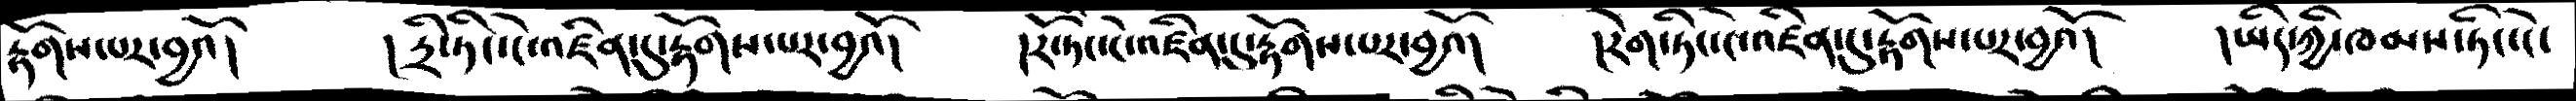རྟོགས་པར་བྱའོ།  །དྲི་ཏིང་ངེ་འཛིན་དུ་རྟོགས་པར་བྱའོ།  །རོ་ཏིང་ངེ་འཛིན་དུ་རྟོགས་པར་བྱའོ།  །རེག་ཏིང་ངེ་འཛིན་དུ་རྟོགས་པར་བྱའོ།  །ཡིད་ཀྱི་ཁམས་ཏིང་ངེ་
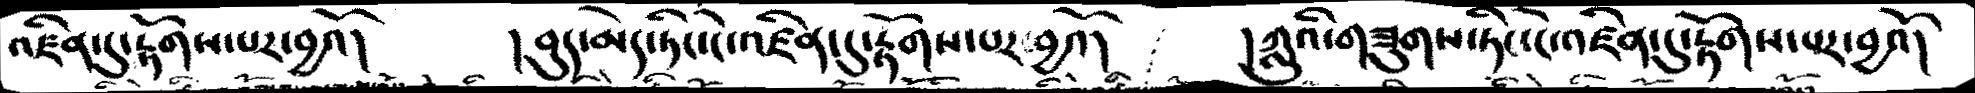འཛིན་དུ་རྟོགས་པར་བྱའོ།  །བུད་མེད་ཏིང་ངེ་འཛིན་དུ་རྟོགས་པར་བྱའོ།  །ཀླུའི་གཟུགས་ཏིང་ངེ་འཛིན་དུ་རྟོགས་པར་བྱའོ།
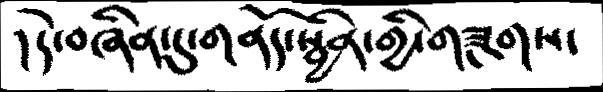།དེ་བཞིན་དུ་གནོད་སྦྱིན་གྱི་གཟུགས་
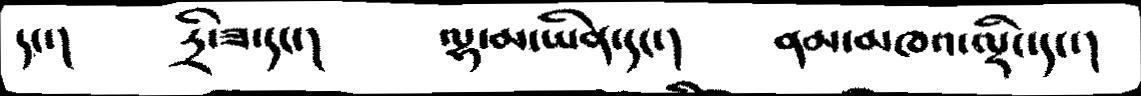དང་།    དྲི་ཟ་དང་།   ལྷ་མ་ཡིན་དང་།   ནམ་མཁའ་ལྡིང་དང་།
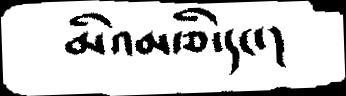མིའམ་ཅི་དང་།
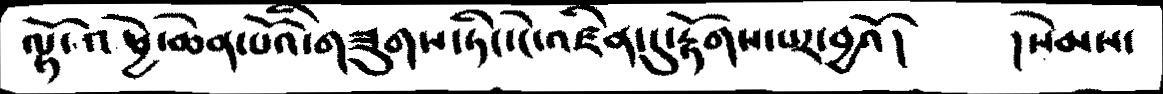ལྟོ་འ ཕྱེ་ཆེན་པོའི་གཟུགས་ཏིང་ངེ་འཛིན་དུ་རྟོགས་པར་བྱའོ།  །སེམས་
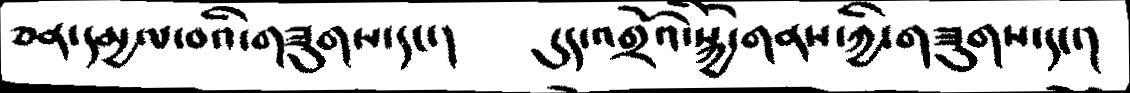ཅན་དམྱལ་བའི་གཟུགས་དང་།  དུད་འགྲོའི་སྐྱེ་གནས་ཀྱི་གཟུགས་དང་།
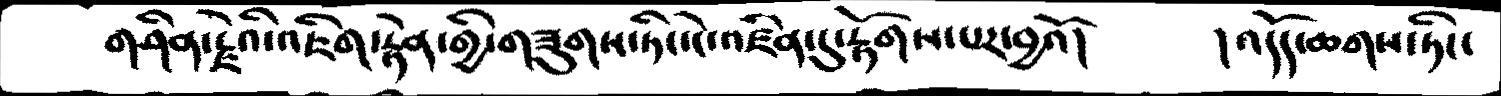གཤིན་རྗེའི་འཇིག་རྟེན་གྱི་གཟུགས་ཏིང་ངེ་འཛིན་དུ་རྟོགས་པར་བྱའོ།   །འདོད་ཆགས་ཏིང་
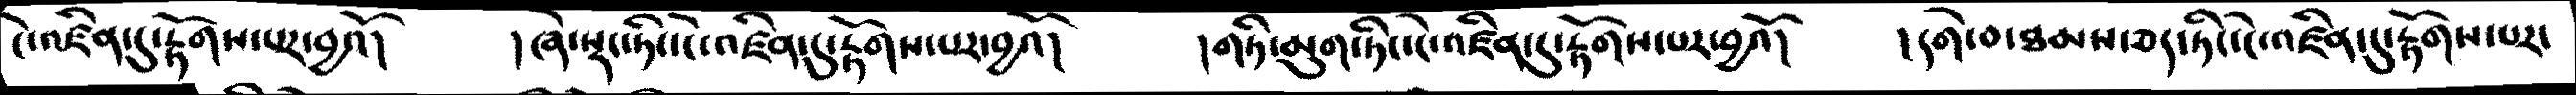ངེ་འཛིན་དུ་རྟོགས་པར་བྱའོ།   །ཞེ་སྡང་ཏིང་ངེ་འཛིན་དུ་རྟོགས་པར་བྱའོ།  །གཏི་མུག་ཏིང་ངེ་འཛིན་དུ་རྟོགས་པར་བྱའོ།  །དགེ་བ་ཐམས་ཅད་ཏིང་ངེ་འཛིན་དུ་རྟོགས་པར་
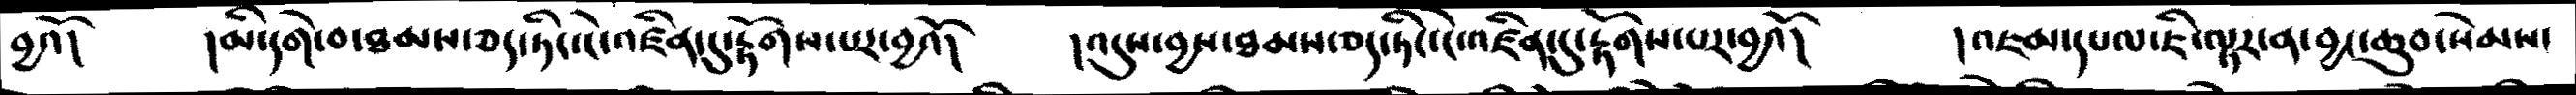བྱའོ།   །མི་དགེ་བ་ཐམས་ཅད་ཏིང་ངེ་འཛིན་དུ་རྟོགས་པར་བྱའོ།  །འདུས་བྱས་ཐམས་ཅད་ཏིང་ངེ་འཛིན་དུ་རྟོགས་པར་བྱའོ།   །འཇམ་དཔལ་ཇི་ལྟར་ན་བྱང་ཆུབ་སེམས་
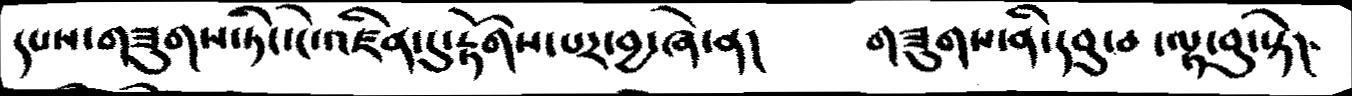དཔས་གཟུགས་ཏིང་ངེ་འཛིན་དུ་རྟོགས་པར་བྱ་ཞེ་ན།   གཟུགས་ནི་དབུ་བ  ་ལྟ་བུ་སྟེ།
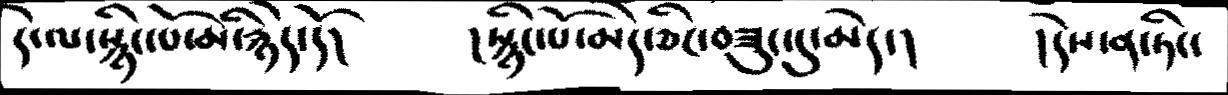དེ་ལ་སྙིང་པོ་མི་རྙེད་དོ།    །སྙིང་པོ་མེད་ཅིང་བཟུང་དུ་མེད་།  །དེས་ན་ཏིང་
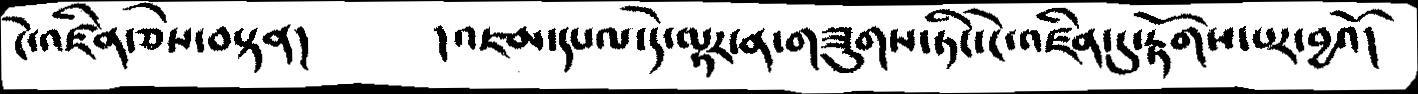ངེ་འཛིན་ཅེས་བསྟན།  །འཇམ་དཔལ་དེ་ལྟར་ན་གཟུགས་ཏིང་ངེ་འཛིན་དུ་རྟོགས་པར་བྱའོ།
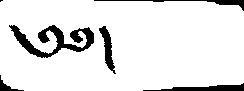༄༅།
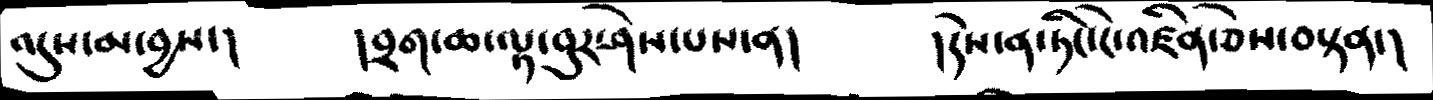འདུས་མ་བྱས་།   །བྲག་ཆ་ལྟ་བུར་ཤེས་པས་ན།   །དེས་ན་ཏིང་ངེ་འཛིན་ཅེས་བསྟན་།
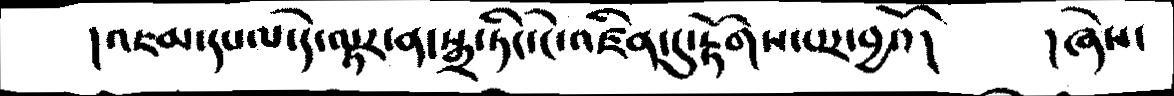།འཇམ་དཔལ་དེ་ལྟར་ན་སྒྲ་ཏིང་ངེ་འཛིན་དུ་རྟོགས་པར་བྱའོ།   །ཞེས་
